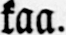kaa.
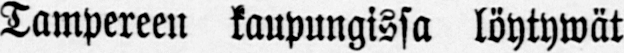Tampereen kaupungissa löytywät
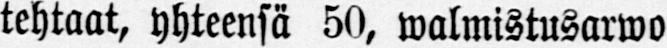tehtaat, yhteensä 50, valmistusarwo
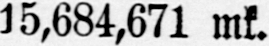15,684,671 mk.
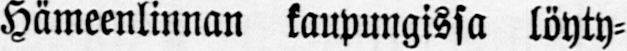Hämeenlinnan kaupungissa löyty-
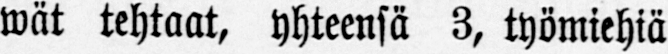wät tehtaat, yhteensä 3, työmiehiä
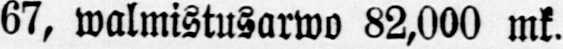67, walmistusarwo 82,000 mk.
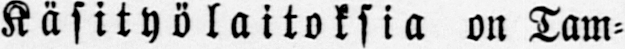Käsityölaitoksia on Tam-
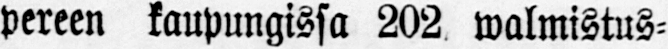pereen kaupungissa 202 walmistus-
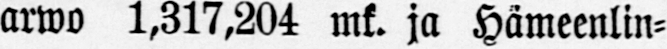arwo 1,317,204 mk. ja Hämeenlin-
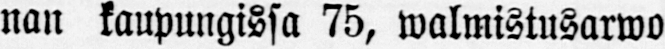nan kaupungissa 75, walmistusarwo
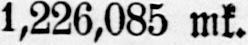1,226,085 mk.
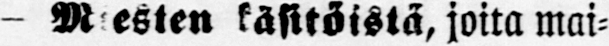— Miesten käsitöistä, joita mai-
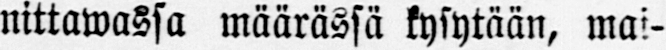nittawassa määrässä kysytään, mai-
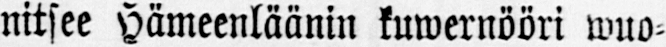nitsee Hämeenläänin kuwernööri wuo-
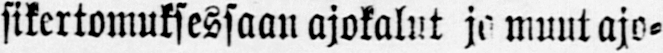sikertomuksessaan ajokalut jo muut ajo-
